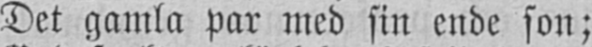Det gamla par med sin ende son;
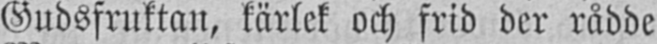Gudsfruktan, kärlek och frid der rådde
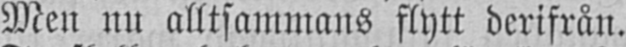Men nu alltsammans flytt derifrån.
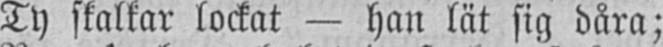Ty skalkar lockat — han lät sig dåra;
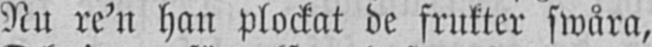Nu re'n han plockat de frukter swåra,
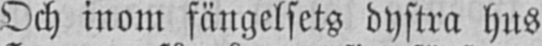Och inom fängelsets dystra hus
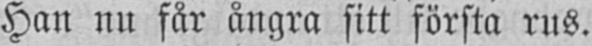Han nu får ångra sitt första rus.
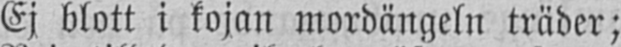Ej blott i kojan mordängeln träder;
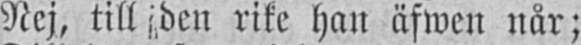Nej, till den rike han äfwen når;
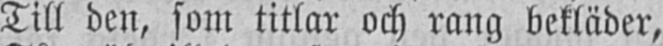Till den, som titlar och rang bekläder,
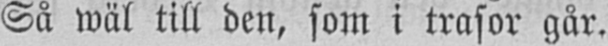Så wäl till den, som i trasor går.
